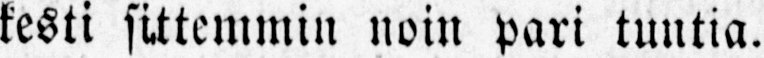kesti sittemmin noin pari tuntia.
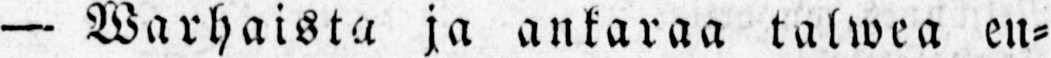— Warhaista ja ankaraa talwea en-
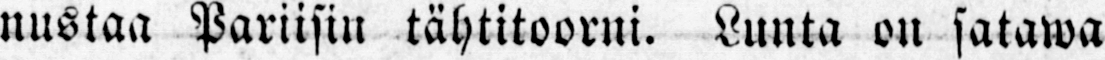nustaa Pariisin tähtitoorni. Lunta on satawa
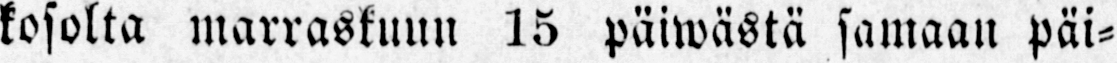kosolta marraskuun 15 päiwästä samaan päi-
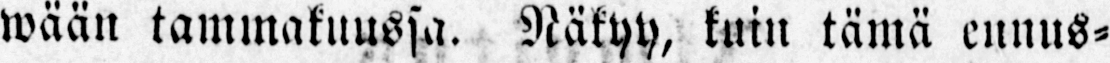wään tammakuussa. Näkyy, kuin tämä ennus-
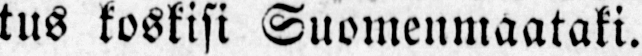tus koskisi Suomenmaataki.
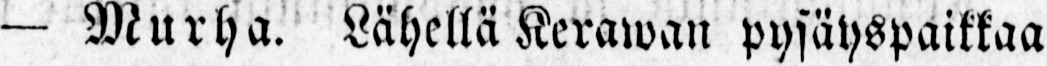— Murha. Lähellä Kerawan pysäyspaikkaa
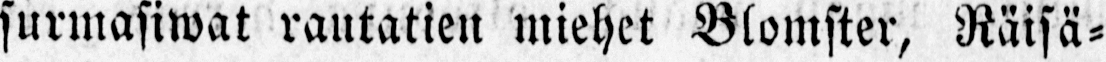surmasiwat rautatien miehet Blomster, Räisä-
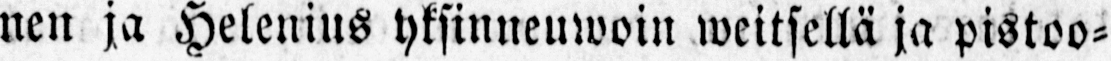nen ja Helenius yksinneuwoin weitsellä ja pistoo-
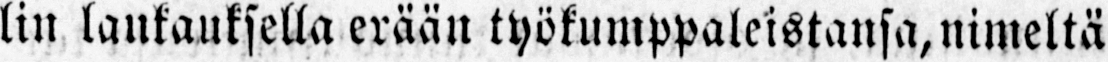lin laukauksella erään työkumppaleistansa, nimeltä
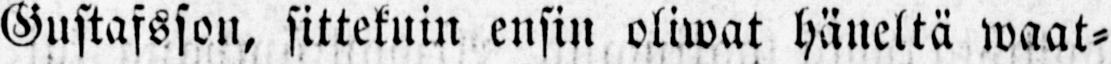Gustafsson, sittekuin ensin oliwat häneltä waat-
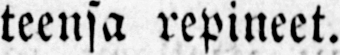teensa repineet.
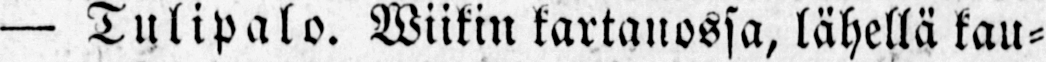— Tulipalo. Wiikin kartanossa, lähellä kau-
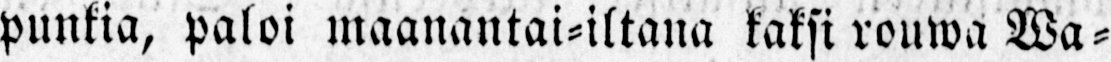punkia, paloi maanantai-iltana kaksi rouwa Wa-
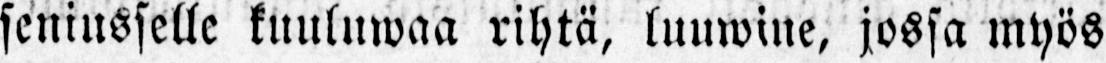seniuselle kuuluwaa rihtä, luuwine, jossa myös
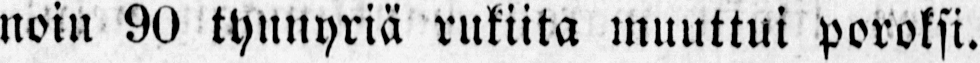noin 90 tynnyriä rukiita muuttui poroksi.
